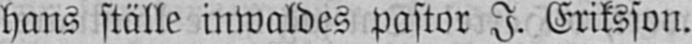hans ställe inwaldes pastor I. Eriksson.
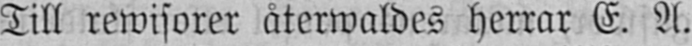Till rewisorer återwaldes herrar E. A.
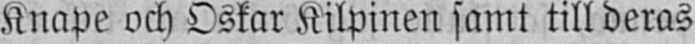Knape och Oskar Kilpinen samt till deras
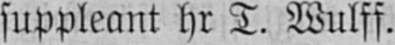suppleant hr T. Wulff.
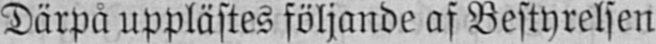Därpå upplästes följande af Bestyrelsen
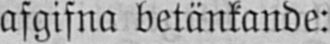afgifna betänkande:
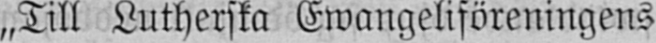„Till Lutherska Ewangeliföreningens
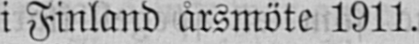i Finland årsmöte 1911.
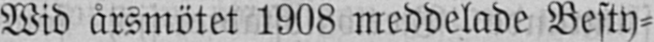Wid årsmötet 1908 meddelade Besty-
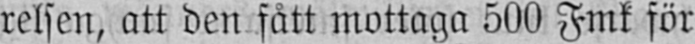relsen, att den fått mottaga 500 Fmk för
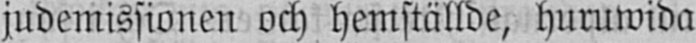judemissionen och hemställde, huruwida
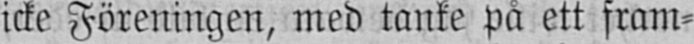icke Föreningen, med tanke på ett fram-
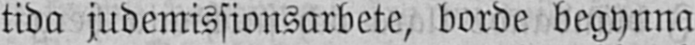tida judemissionsarbete, borde begynna
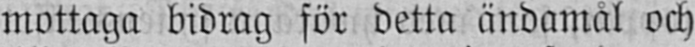mottaga bidrag för detta ändamål och
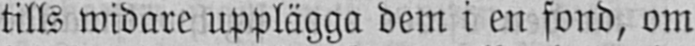tills widare upplägga dem i en fond, om
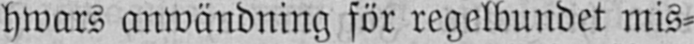hwars anwändning för regelbundet mis-
